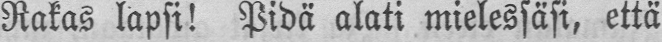Rakas lapsi! Pidä alati mielessäsi, että
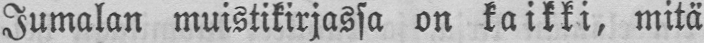Jumalan muistikirjassa on kaikki, mitä
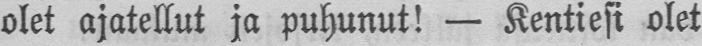olet ajatellut ja puhunut! — Kentiesi olet
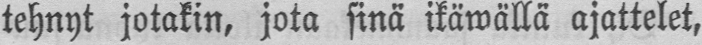tehnyt jotakin, jota sinä ikäwällä ajattelet,
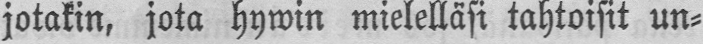jotakin, jota hywin mielelläsi tahtoisit un-
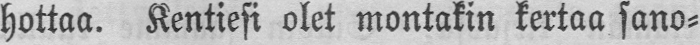hottaa. Kentiesi olet montakin kertaa sano-
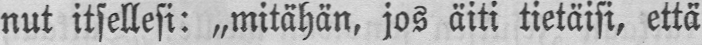nut itsellesi: „mitähän, jos äiti tietäisi, että
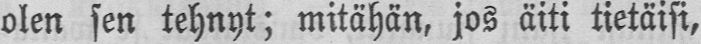olen sen tehnyt; mitähän, jos äiti tietäisi,
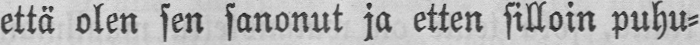että olen sen sanonut ja etten silloin puhu-
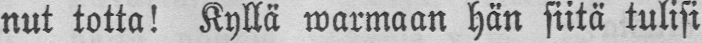nut totta! Kyllä warmaan hän siitä tulisi
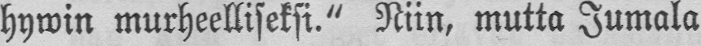hywin murheelliseksi." Niin, mutta Jumala
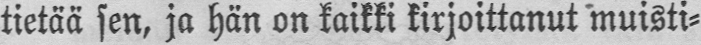tietää sen, ja hän on kaikki kirjoittanut muisti-
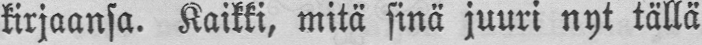kirjaansa. Kaikki, mitä sinä juuri nyt tällä
